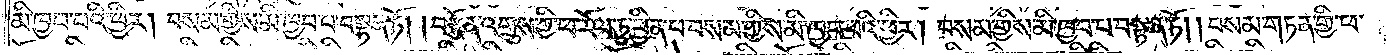མི་ཁྱབ་པའི་ཕྱིར། བསམ་གྱིས་མི་ཁྱབ་པ་བསྟན་ཏོ། །བརྩོན་འགྲུས་ཀྱི་ཕ་རོལ་ཏུ་ཕྱིན་པ་བསམ་གྱིས་མི་ཁྱབ་པའི་ཕྱིར། བསམ་གྱིས་མི་ཁྱབ་པ་བསྟན་ཏོ། །བསམ་གཏན་གྱི་ཕ་
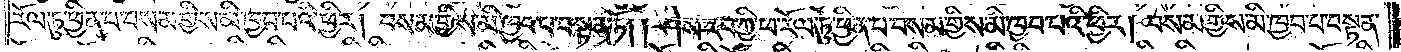རོལ་ཏུ་ཕྱིན་པ་བསམ་གྱིས་མི་ཁྱབ་པའི་ཕྱིར། བསམ་གྱིས་མི་ཁྱབ་པ་བསྟན་ཏོ། །ཤེས་རབ་ཀྱི་ཕ་རོལ་ཏུ་ཕྱིན་པ་བསམ་གྱིས་མི་ཁྱབ་པའི་ཕྱིར། བསམ་གྱིས་མི་ཁྱབ་པ་བསྟན་
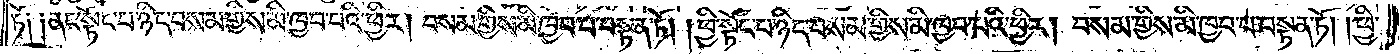ཏོ༑ ༑ནང་སྟོང་པ་ཉིད་བསམ་གྱིས་མི་ཁྱབ་པའི་ཕྱིར། བསམ་གྱིས་མི་ཁྱབ་པ་བསྟན་ཏོ། །ཕྱི་སྟོང་བ་ཉིད་བསམ་གྱིས་མི་ཁྱབ་པའི་ཕྱིར། བསམ་གྱིས་མི་ཁྱབ་པ་བསྟན་ཏོ། །ཕྱི་
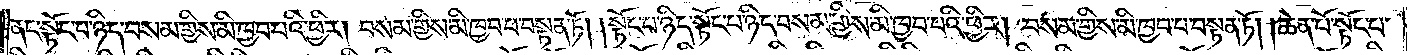ནང་སྟོང་པ་ཉིད་བསམ་གྱིས་མི་ཁྱབ་པའི་ཕྱིར། བསམ་གྱིས་མི་ཁྱབ་པ་བསྟན་ཏོ། །སྟོང་པ་ཉིད་སྟོང་པ་ཉིད་བསམ་གྱིས་མི་ཁྱབ་པའི་ཕྱིར། བསམ་གྱིས་མི་ཁྱབ་པ་བསྟན་ཏོ། །ཆེན་པོ་སྟོང་པ་
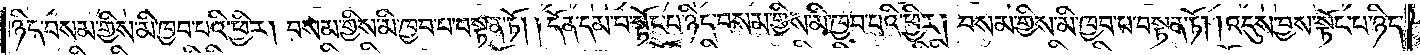ཉིད་བསམ་གྱིས་མི་ཁྱབ་པའི་ཕྱིར། བསམ་གྱིས་མི་ཁྱབ་པ་བསྟན་ཏོ། །དོན་དམ་པ་སྟོང་པ་ཉིད་བསམ་གྱིས་མི་ཁྱབ་པའི་ཕྱིར། བསམ་གྱིས་མི་ཁྱབ་པ་བསྟན་ཏོ། །འདུས་བྱས་སྟོང་པ་ཉིད་
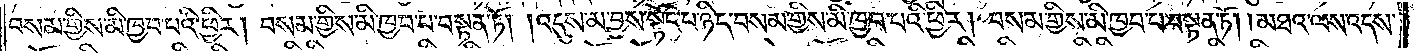བསམ་གྱིས་མི་ཁྱབ་པའི་ཕྱིར། བསམ་གྱིས་མི་ཁྱབ་པ་བསྟན་ཏོ། །འདུས་མ་བྱས་སྟོང་པ་ཉིད་བསམ་གྱིས་མི་ཁྱབ་པའི་ཕྱིར། བསམ་གྱིས་མི་ཁྱབ་པ་བསྟན་ཏོ། །མཐའ་ལས་འདས་
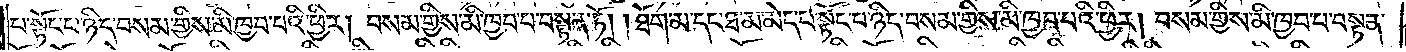པ་སྟོང་པ་ཉིད་བསམ་གྱིས་མི་ཁྱབ་པའི་ཕྱིར། བསམ་གྱིས་མི་ཁྱབ་པ་བསྟན་ཏོ། །ཐོག་མ་དང་ཐ་མ་མེད་པ་སྟོང་པ་ཉིད་བསམ་གྱིས་མི་ཁྱབ་པའི་ཕྱིར། བསམ་གྱིས་མི་ཁྱབ་པ་བསྟན་
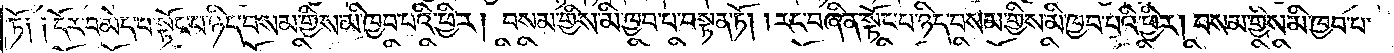ཏོ༑ ༑དོར་བ་མེད་པ་སྟོང་པ་ཉིད་བསམ་གྱིས་མི་ཁྱབ་པའི་ཕྱིར། བསམ་གྱིས་མི་ཁྱབ་པ་བསྟན་ཏོ། །རང་བཞིན་སྟོང་པ་ཉིད་བསམ་གྱིས་མི་ཁྱབ་པའི་ཕྱིར། བསམ་གྱིས་མི་ཁྱབ་པ་
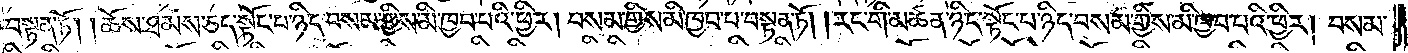བསྟན་ཏོ། །ཆོས་ཐམས་ཅད་སྟོང་པ་ཉིད་བསམ་གྱིས་མི་ཁྱབ་པའི་ཕྱིར། བསམ་གྱིས་མི་ཁྱབ་པ་བསྟན་ཏོ། །རང་གི་མཚན་ཉིད་སྟོང་པ་ཉིད་བསམ་གྱིས་མི་ཁྱབ་པའི་ཕྱིར། བསམ་
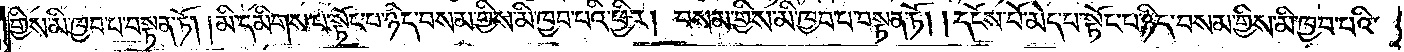གྱིས་མི་ཁྱབ་པ་བསྟན་ཏོ། །མི་དམིགས་པ་སྟོང་པ་ཉིད་བསམ་གྱིས་མི་ཁྱབ་པའི་ཕྱིར། བསམ་གྱིས་མི་ཁྱབ་པ་བསྟན་ཏོ། །དངོས་པོ་མེད་པ་སྟོང་པ་ཉིད་བསམ་གྱིས་མི་ཁྱབ་པའི་
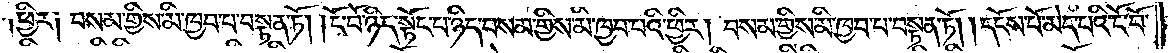ཕྱིར༑ བསམ་གྱིས་མི་ཁྱབ་པ་བསྟན་ཏོ། །ངོ་བོ་ཉིད་སྟོང་པ་ཉིད་བསམ་གྱིས་མི་ཁྱབ་པའི་ཕྱིར། བསམ་གྱིས་མི་ཁྱབ་པ་བསྟན་ཏོ། །དངོས་པོ་མེད་པའི་ངོ་བོ་
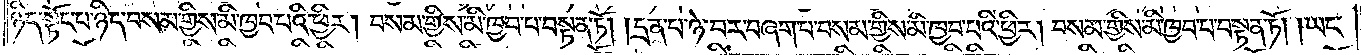ཉིད་སྟོང་པ་ཉིད་བསམ་གྱིས་མི་ཁྱབ་པའི་ཕྱིར། བསམ་གྱིས་མི་ཁྱབ་པ་བསྟན་ཏོ། །དྲན་པ་ཉེ་བར་བཞག་པ་བསམ་གྱིས་མི་ཁྱབ་པའི་ཕྱིར། བསམ་གྱིས་མི་ཁྱབ་པ་བསྟན་ཏོ། །ཡང་
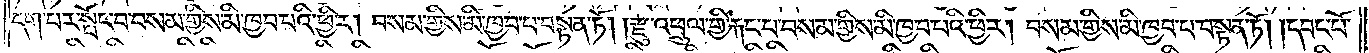དག་པར་སྤོང་བ་བསམ་གྱིས་མི་ཁྱབ་པའི་ཕྱིར། བསམ་གྱིས་མི་ཁྱབ་པ་བསྟན་ཏོ། །རྫུ་འཕྲུལ་གྱི་རྐང་པ་བསམ་གྱིས་མི་ཁྱབ་པའི་ཕྱིར། བསམ་གྱིས་མི་ཁྱབ་པ་བསྟན་ཏོ། །དབང་པོ་
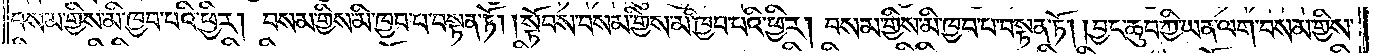བསམ་གྱིས་མི་ཁྱབ་པའི་ཕྱིར། བསམ་གྱིས་མི་ཁྱབ་པ་བསྟན་ཏོ། །སྟོབས་བསམ་གྱིས་མི་ཁྱབ་པའི་ཕྱིར། བསམ་གྱིས་མི་ཁྱབ་པ་བསྟན་ཏོ། བྱང་ཆུབ་ཀྱི་ཡན་ལག་བསམ་གྱིས་
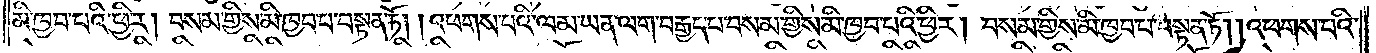མི་ཁྱབ་པའི་ཕྱིར། བསམ་གྱིས་མི་ཁྱབ་པ་བསྟན་ཏོ། །འཕགས་པའི་ལམ་ཡན་ལག་བརྒྱད་པ་བསམ་གྱིས་མི་ཁྱབ་པའི་ཕྱིར། བསམ་གྱིས་མི་ཁྱབ་པ་བསྟན་ཏོ། །འཕགས་པའི་
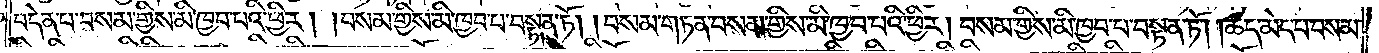བདེན་པ་བསམ་གྱིས་མི་ཁྱབ་པའི་ཕྱིར། བསམ་གྱིས་མི་ཁྱབ་པ་བསྟན་ཏོ། །བསམ་གཏན་བསམ་གྱིས་མི་ཁྱབ་པའི་ཕྱིར། བསམ་གྱིས་མི་ཁྱབ་པ་བསྟན་ཏོ། །ཚད་མེད་པ་བསམ་
